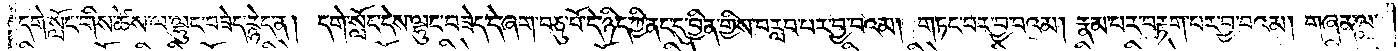དགེ་སློང་གིས་ཚེས་ལ་ལྷུང་བཟེད་རྙེད་ན། དགེ་སློང་དེས་ལྷུང་བཟེད་དེ་ཞག་བཅུ་པོ་དེ་ཉིད་ཀྱི་ནང་དུ་བྱིན་གྱིས་བརླབ་པར་བྱ་བའམ། གཏང་བར་བྱ་བའམ། རྣམ་པར་བརྟག་པར་བྱ་བའམ། གཞན་ལ་
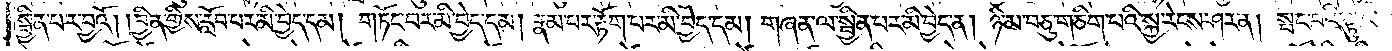སྦྱིན་པར་བྱའོ། །བྱིན་གྱིས་རློབ་པར་མི་བྱེད་དམ། གཏོང་བར་མི་བྱེད་དམ། རྣམ་པར་རྟོག་པར་མི་བྱེད་དམ། གཞན་ལ་སྦྱིན་པར་མི་བྱེད་ན། ཉི་མ་བཅུ་གཅིག་པའི་སྐྱ་རེངས་ཤར་ན། སྤང་བའི་ལྟུང་
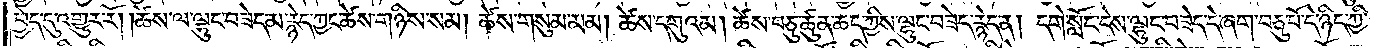བྱེད་དུ་འགྱུར་རོ། །ཚེས་ལ་ལྷུང་བཟེད་མ་རྙེད་ཀྱང་ཚེས་གཉིས་སམ། ཚེས་གསུམ་མམ། ཚེས་དགུའམ། ཚེས་བཅུ་ཚུན་ཆད་ཀྱིས་ལྷུང་བཟེད་རྙེད་ན། དགེ་སློང་དེས་ལྷུང་བཟེད་དེ་ཞག་བཅུ་པོ་དེ་ཉིད་ཀྱི་
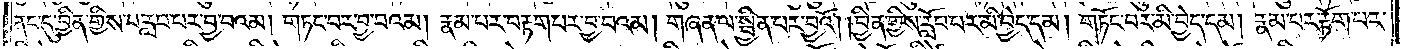ནང་དུ་བྱིན་གྱིས་བརླབ་པར་བྱ་བའམ། གཏང་བར་བྱ་བའམ། རྣམ་པར་བརྟག་པར་བྱ་བའམ། གཞན་ལ་སྦྱིན་པར་བྱའོ། །བྱིན་གྱིས་རློབ་པར་མི་བྱེད་དམ། གཏོང་བར་མི་བྱེད་དམ། རྣམ་པར་རྟོག་པར་
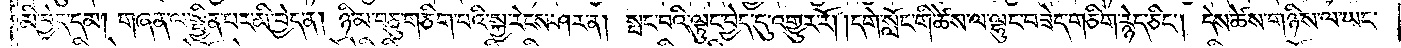མི་བྱེད་དམ། གཞན་ལ་སྦྱིན་པར་མི་བྱེད་ན། ཉི་མ་བཅུ་གཅིག་པའི་སྐྱ་རེངས་ཤར་ན། སྤང་བའི་ལྟུང་བྱེད་དུ་འགྱུར་རོ། །དགེ་སློང་གི་ཚེས་ལ་ལྷུང་བཟེད་གཅིག་རྙེད་ཅིང༌། དེས་ཚེས་གཉིས་ལ་ཡང་
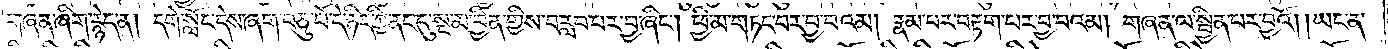གཞན་ཞིག་རྙེད་ན། དགེ་སློང་དེས་ཞག་བཅུ་པོ་དེ་ཉིད་ཀྱི་ནང་དུ་སྔ་མ་བྱིན་གྱིས་བརླབ་པར་བྱ་ཞིང༌། ཕྱི་མ་གཏང་བར་བྱ་བའམ། རྣམ་པར་བརྟག་པར་བྱ་བའམ། གཞན་ལ་སྦྱིན་པར་བྱའོ། །ཡང་ན་
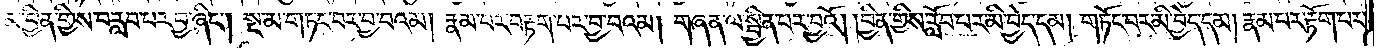ཕྱི་མ་བྱིན་གྱིས་བརླབ་པར་བྱ་ཞིང༌། སྔ་མ་གཏང་བར་བྱ་བའམ། རྣམ་པར་བརྟག་པར་བྱ་བའམ། གཞན་ལ་སྦྱིན་པར་བྱའོ། །བྱིན་གྱིས་རློབ་པར་མི་བྱེད་དམ། གཏོང་བར་མི་བྱེད་དམ། རྣམ་པར་རྟོག་པར་
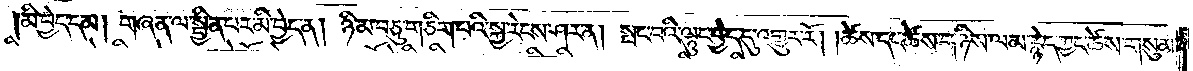མི་བྱེད་དམ། གཞན་ལ་སྦྱིན་པར་མི་བྱེད་ན། ཉི་མ་བཅུ་གཅིག་པའི་སྐྱ་རེངས་ཤར་ན། སྤང་བའི་ལྟུང་བྱེད་དུ་འགྱུར་རོ། །ཚེས་དང་ཚེས་གཉིས་ལ་མ་རྙེད་ཀྱང་ཚེས་གསུམ་
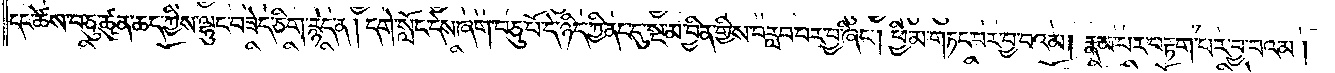དང་ཚེས་བཅུ་ཚུན་ཆད་ཀྱིས་ལྷུང་བཟེད་ཅིག་རྙེད་ན། དགེ་སློང་དེས་ཞག་བཅུ་པོ་དེ་ཉིད་ཀྱི་ནང་དུ་སྔ་མ་བྱིན་གྱིས་བརླབ་པར་བྱ་ཞིང༌། ཕྱི་མ་གཏང་བར་བྱ་བའམ། རྣམ་པར་བརྟག་པར་བྱ་བའམ།
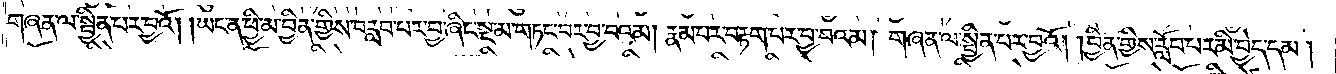གཞན་ལ་སྦྱིན་པར་བྱའོ། །ཡང་ན་ཕྱི་མ་བྱིན་གྱིས་བརླབ་པར་བྱ་ཞིང་སྔ་མ་གཏང་བར་བྱ་བའམ། རྣམ་པར་བརྟག་པར་བྱ་བའམ། གཞན་ལ་སྦྱིན་པར་བྱའོ། །བྱིན་གྱིས་རློབ་པར་མི་བྱེད་དམ།
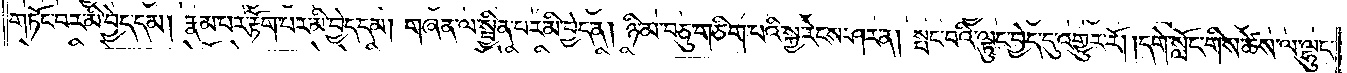གཏོང་བར་མི་བྱེད་དམ། རྣམ་པར་རྟོག་པར་མི་བྱེད་དམ། གཞན་ལ་སྦྱིན་པར་མི་བྱེད་ན། ཉི་མ་བཅུ་གཅིག་པའི་སྐྱ་རེངས་ཤར་ན། སྤང་བའི་ལྟུང་བྱེད་དུ་འགྱུར་རོ། །དགེ་སློང་གིས་ཚེས་ལ་ལྷུང་
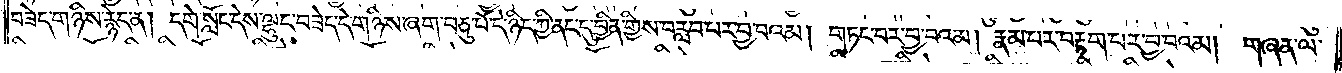བཟེད་གཉིས་རྙེད་ན། དགེ་སློང་དེས་ལྷུང་བཟེད་དེ་གཉིས་ཞག་བཅུ་པོ་དེ་ཉིད་ཀྱི་ནང་དུ་བྱིན་གྱིས་བརླབ་པར་བྱ་བའམ། གཏང་བར་བྱ་བའམ། རྣམ་པར་བརྟག་པར་བྱ་བའམ། གཞན་ལ་
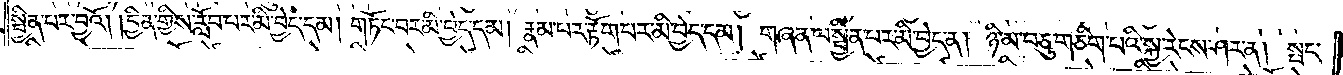སྦྱིན་པར་བྱའོ། །བྱིན་གྱིས་རློབ་པར་མི་བྱེད་དམ། གཏོང་བར་མི་བྱེད་དམ། རྣམ་པར་རྟོག་པར་མི་བྱེད་དམ། གཞན་ལ་སྦྱིན་པར་མི་བྱེད་ན། ཉི་མ་བཅུ་གཅིག་པའི་སྐྱ་རེངས་ཤར་ན། སྤང་
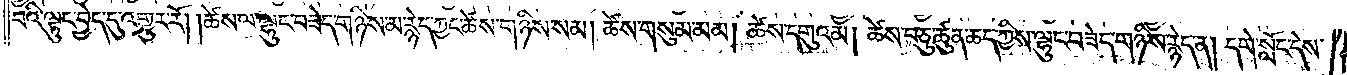བའི་ལྟུང་བྱེད་དུ་འགྱུར་རོ། །ཚེས་ལ་ལྷུང་བཟེད་གཉིས་མ་རྙེད་ཀྱང་ཚེས་གཉིས་སམ། ཚེས་གསུམ་མམ། ཚེས་དགུའམ། ཚེས་བཅུ་ཚུན་ཆད་ཀྱིས་ལྷུང་བཟེད་གཉིས་རྙེད་ན། དགེ་སློང་དེས་
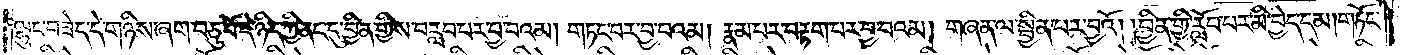ལྷུང་བཟེད་དེ་གཉིས་ཞག་བཅུ་པོ་དེ་ཉིད་ཀྱི་ནང་དུ་བྱིན་གྱིས་བརླབ་པར་བྱ་བའམ། གཏང་བར་བྱ་བའམ། རྣམ་པར་བརྟག་པར་བྱ་བའམ། གཞན་ལ་སྦྱིན་པར་བྱའོ། །བྱིན་གྱི་རློབ་པར་མི་བྱེད་དམ། གཏོང་
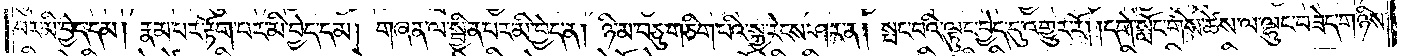བར་མི་བྱེད་དམ། རྣམ་པར་རྟོག་པར་མི་བྱེད་དམ། གཞན་ལ་སྦྱིན་པར་མི་བྱེད་ན། ཉི་མ་བཅུ་གཅིག་པའི་སྐྱ་རེངས་ཤར་ན། སྤང་བའི་ལྟུང་བྱེད་དུ་འགྱུར་རོ། །དགེ་སློང་གིས་ཚེས་ལ་ལྷུང་བཟེད་གཉིས་
